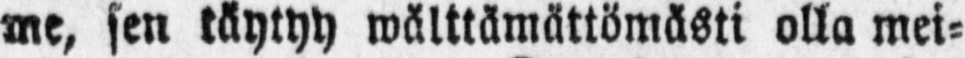me, sen t ä ytyy wälttämättöm ä sti olla mei-
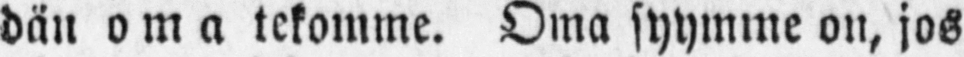dän oma tekomme. Oma syymme on, jos
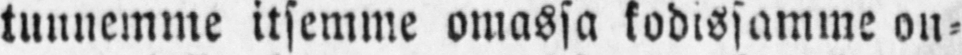tunnemme itsemme omassa kodissamme on-
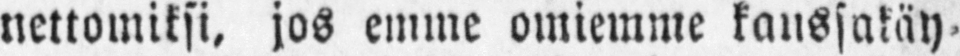nettomiksi, jos emme omiemme kanssakäy-
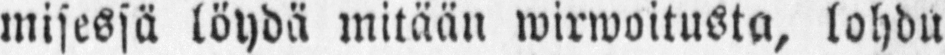misessä löydä mitään wirwoitusta, lohdu
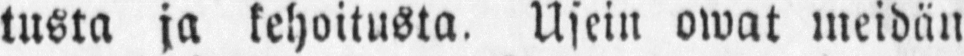tusta ja kehoitusta. Usein owat meidän
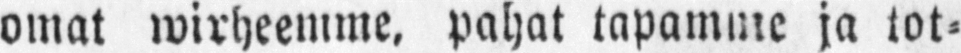omat wirheemme, pahat tapamme ja tot-
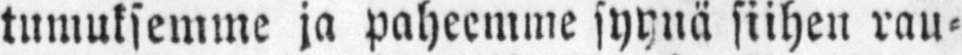tumuksemme ja paheemme syynä siihen rau-
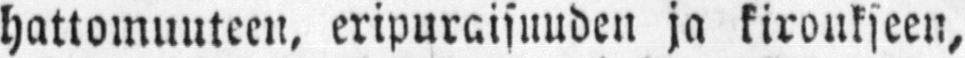hattomuuteen, eripuraisuuden ja kiroukseen,
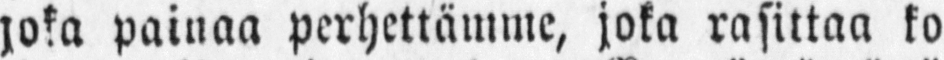joka painaa perhettämme, joka rasittaa ko-
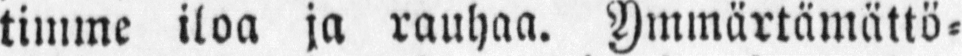timme iloa ja rauhaa. Ymmärtämättö-
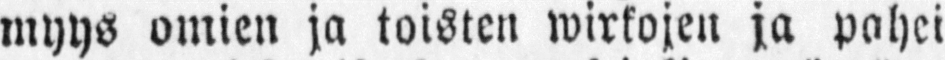myys omien ja toisten wirkojen ja pahei-
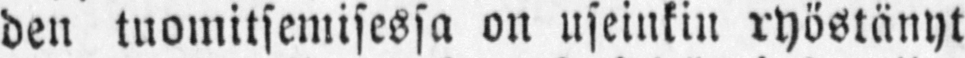den tuomitsemisessa on useinkin ryöstänyt
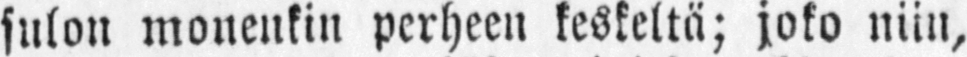sulon monenkin perheen keskeltä; joko niin,
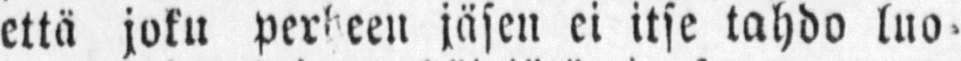että joku perheen jäsen ei itse tahdo luo-
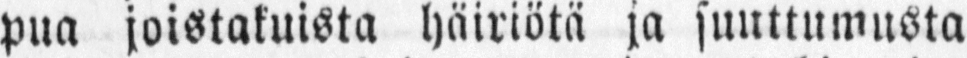pua joistakuista häiriötä ja suuttumusta
